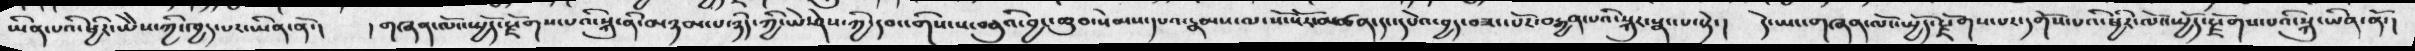ཡིན་པའི་ཕྱིར་ཡེེས་ཀྱི་ཁྱད་པར་ཡིན་ནོ་།   །གཞན་ལོང་སྤྱོད་སྫོགས་པའི་སྐུ་ནི་མཉམ་པ་ཉིད་ཀྱི་ཡེ་ཤེས་ཀྱི་དབང་གིས་ས་་བཅུའི་བྱང་ཆུབ་སེམས་དཔའ་རྣམས་པ་སོ་སོར་མཚན་དང་དཔེའ་བྱད་བཟང་པོ་བརྒྱན་པའི་སྐུར་སྣང་པ་སྟེ་།  དེ་ཡང་གཞན་ལོང་སྤྱོད་སྫོགས་པར་དགོས་པའི་ཕྱིར་ལོང་སྤྱོད་སྫོགས་པའི་སྐུ་ཡིན་ནོ་།
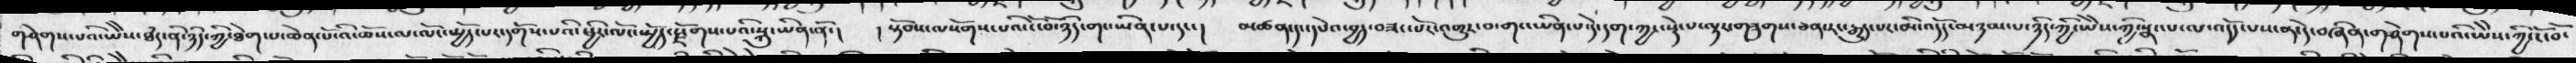གཤེགས་པའི་ཡེེས་ཐཾད་ནི་ཉིད་ཀྱི་ཐེག་པ་ཆེན་པོ་འི་ཆོས་ལ་ལོང་སྤྱོད་པར་དགོས་པའི་ལོང་སྤྱོད་སྫོགས་པའི་སྐུ་ཡིན་ནོ་།  །སྟོབས་ལསོགས་པའི་ངོ་བོ་ཉིད་གང་ཡིན་པ་དང་།  མཚན་དང་དཔེའ་བྱད་བཟང་པོར་འགྱུར་བ་གང་ཡིན་པ་དེ་དག་ཀྱང་སྡེ་པ་ལྟར་གཟུགས་ཅན་རང་རྒྱུད་པར་མི་འདོད་མཉམ་པ་ཉིད་ཀྱི་ཡེེས་ཀྱི་སྣང་པ་ལ་འདོད་པས་ན་དེ་བཞིན་གཤེགས་པའི་ཡེེས་ཀྱི་ངོ་བོ་
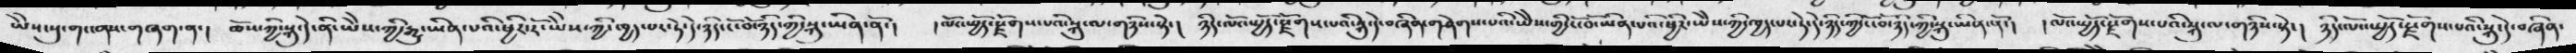ཡེེས་སུ་གང་ནས་གཞག་ན་།   ཆོས་ཀྱི་སྐུ་དེ་ནི་ཡེེས་ཀྱི་རྒྱུ་ཡིན་པའི་ཕྱིར་རོ་ཡེེས་ཀྱི་ཁྱད་པར་ཏེ་དེ་ཉིད་ངོ་བོ་ཉིད་ཀྱི་སྐུ་ཡིན་ནོ་།  །ལོང་སྤྱོད་སྫོགས་པའི་སྐུ་ལ་གཉིས་སྟེ་།  ཉིད་ལོང་སྤྱོད་སྫོགས་པའི་སྐུ་དེ་བཞིན་གཤེགས་པའི་ཡེེས་ཀྱི་ངོ་བོ་ཡིན་པའི་ཕྱིར་ཡེེས་ཀྱི་ཁྱད་པར་དེ་དེ་ཉིད་ཀྱི་ངོ་བོ་ཉིད་ཀྱི་སྐུ་ཡིན་ནོ་།    །ལོང་སྤྱོད་སྫོགས་པའི་སྐུ་ལ་གཉིས་སྟེ་།  ཉིད་ལོང་སྤྱོད་སྫོགས་པའི་སྐུ་དེ་་བཞིན་
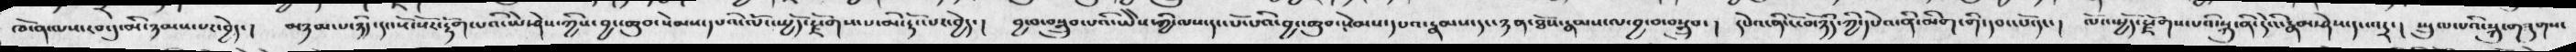ཁོ་ན་ལས་རབ་དུ་མི་ཉམས་པར་བྱེད་།  མཉམ་པ་ཉིད་དང་སོ་སོར་རྟོག་པའི་ཡེ་ཤེས་ཀྱིས་བྱང་ཆུབ་སེམས་དཔའི་ལོང་སྤྱོད་རྫོགས་པ་མི་རྟོང་པར་བྱེད་།   བྱ་བ་་བསྒྲུབ་པའི་ཡེེས་ཀྱི་ལས་དང་པོ་པའི་བྱང་ཆུབ་སེསམས་དཔའ་རྣམས་དང་ཉན་ཐོས་རྣམས་ལ་བྱ་བ་བསྒྲུབ་།  དཔེའ་ནི་ངོ་མཉིད་ཀྱི་དཔེའ་ནི་མིག་གི་དབང་པོ་དང་།   ལོང་སྤྱོད་རྫོགས་པའི་སྐུ་ནི་དེའི་རྣམ་ཤེས་དང་འདྲ་།     སྤྲུལ་པའི་སྐུ་གཟུགས་
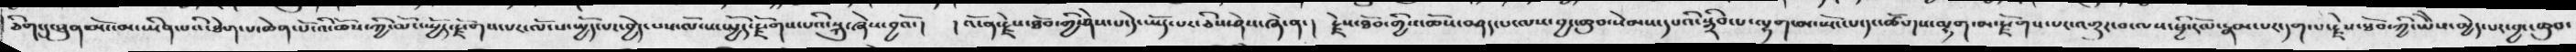ཅིག་དུ་ཐུན་མོང་མ་ཡིན་པའི་ཐེག་པ་ཆེན་པོ་འི་ཆོས་ཀྱི་ལོང་སྤྱོད་སྫོགས་པར་ལོང་སྤྱོད་པར་བྱེད་པས་ལོངས་སྤྱོད་སྫོགས་པའི་སྐུ་ཞེས་བྱའོ་།  །འོ་ན་རྗེས་ཐོབ་ཀྱི་ཤེས་པ་དེ་ཡོད་པར་ཅིས་ཤེས་ཞེ་ན་།  རྗེས་ཐོབ་གྱིས་ཆོས་བཤད་པ་ལས་བྱང་ཆུབ་སེམས་དཔའི་སྒྲིབ་པ་ལྷག་མ་སྤོང་པ་དང་ཚོགས་ལྷག་མ་སྫོགས་་པར་འགྱུར་བ་ལས་ཕྱི་རོལ་རྣམ་པར་དག་པ་རྗེས་ཐོབ་ཀྱི་ཡེེས་མྱེད་པར་བྱང་ཆུབ་
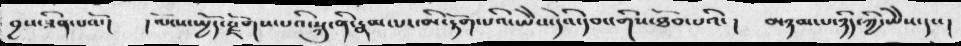བྱས་ཟིན་པའོ་།    །ལོངས་སྤྱོད་སྫོགས་པའི་སྐུ་ནི་རྣམ་པར་མི་རྟོག་པའི་ཡེེས་དེའི་དབང་གིས་ཐོབ་པའི་།    མཉམ་པ་ཉིད་ཀྱི་ཡེེས་དང་།
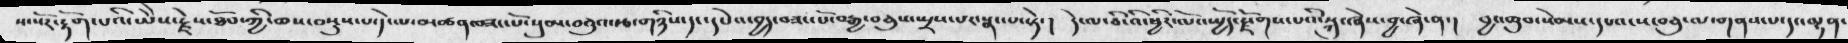སོ་སོར་རྟོག་པའི་ཡེེས་རྗེས་ཐོབ་ཀྱི་ཆས་བསྡུས་པ་དེ་ལ་མཚན་བཟང་པོ་སུམ་བཅུའ་རྩ་གཉིས་དང་དཔེའ་བྱད་བཟང་པོ་བརྒྱ་བཅུས་སྤྲས་པར་སྣང་པ་སྟེ་།  དེ་ལ་ཅི་འི་ཕྱིར་ལོང་སྤྱོད་སྫོགས་པའི་སྐུ་ཞེས་བྱ་ཞེ་ན་།     བྱང་ཆུབ་སེམས་དཔའ་ས་བཅུ་ལ་གནས་པ་དང་ལྡན་
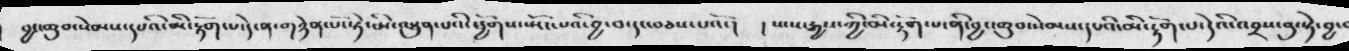བྱང་ཆུབ་སེམས་དཔའི་མི་རྟོག་པ་དེ་ན་གཉེན་པོ་སྟེ་མི་མཐུན་པའི་ཕྱོགས་སྤོང་པའི་བྱ་བ་དང་བཅས་པའོ་།  ། སངས་རྒྱས་ཀྱི་མི་རྟོག་པ་ནི་བྱང་ཆུབ་སེམས་དཔའི་མི་རྟོག་པ་དེའི་འབྲས་བུ་སྟེ་བྱ་བ
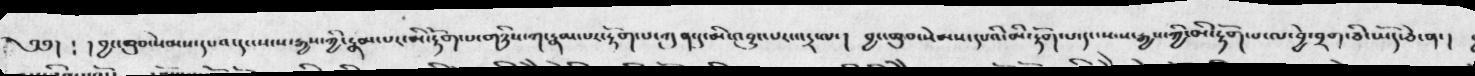༄༅།  ༴ །བྱང་ཆུབ་སེམས་དཔའ་དང་སངས་རྒྱས་ཀྱི་རྣམ་པར་མི་རྟོག་པ་གཉིས་ཀ་རྣམ་པར་རྟོག་པ་ཀུན་དུ་མི་འབྱུང་པར་འདྲ་ལ་།  བྱང་ཆུབ་སེམས་དཔའི་མི་རྟོག་པ་དང་སངས་རྒྱས་ཀྱི་མི་རྟོག་པ་ལ་བྱེ་བྲག་ཅི་ཡོད་ཅེ་ན་།
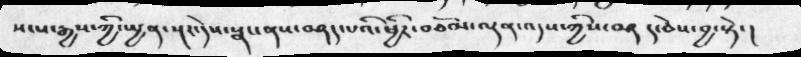སངས་རྒྱས་ཀྱི་ཡྱན་སྔར་དེས་སྣང་ནས་བཤད་པའི་ཕྱིར་བཅོམ་ལྡན་འདས་ཀྱིས་བཤད་ཅེས་བྱ་སྟེ་།
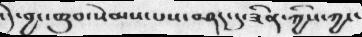་དེ་བྱང་ཆུབ་སེམས་པས་བཤད་དུ་ཟིན་ཀྱིས་ཀྱང་
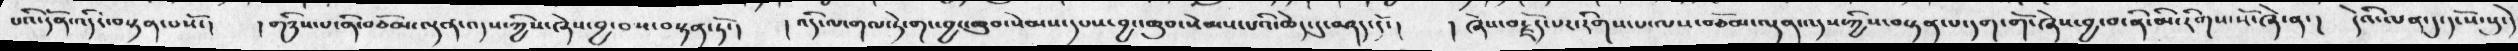པའི་དོན་འདིར་བསྟན་པསོ་།   །གཉིས་པ་ནི་བཅོམ་ལྡན་འདས་ཀྱིས་ཞེས་བྱ་བས་བསྟན་ཏོ་།   །འདི་ལ་གལ་ཏེ་གང་བྱང་ཆུབ་སེམས་དཔས་བྱང་ཆུབ་སེམས་པའི་ཆེད་དུ་བཤད་དོ་།   །ཞེས་བརྗོད་པར་རིགས་པ་ལས་བཅོམ་ལྡན་འདས་ཀྱིས་བསྟན་པ་དག་གོ་ཞེས་བྱ་བ་ནི་མི་རིགས་སོ་ཞེ་ན་།  དེའི་ལན་དུ་དངོས་སུ་དེ
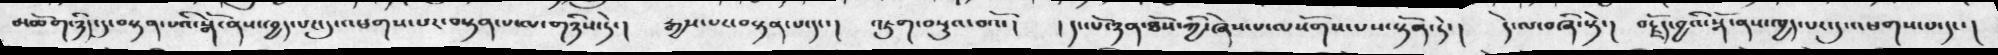མཆོག་ཉིད་དུ་བསྟན་པའི་སྒོ་ནས་ཁྱད་པར་དུ་འཕགས་པར་བསྟན་པ་ལ་གཉིས་ཏེ་།   རྒྱས་པར་བསྟན་པ་དང་།  འཇུག་བསྡུའ་བའོ་།      ། དང་པོ་ཉན་ཐོས་ཀྱི་ཞེས་པ་ལསོགས་པས་སྟོན་ཏེ་།  དེ་ལ་བཞི་ཏེ་།   བརྗོད་བྱའི་སྒོ་ནས་ཁྱད་པར་དུ་འཕགས་པ་དང་།
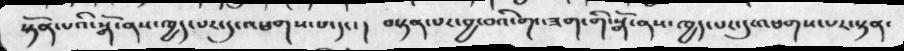སྟོན་པའི་སྒོ་ནས་ཁྱད་པར་དུ་འཕགས་པ་དང་།   བསྟན་པར་བྱ་བའི་གང་ཟག་གི་སྒོ་ནས་ཁྱད་པར་དུ་འཕགས་པར་སྟན་
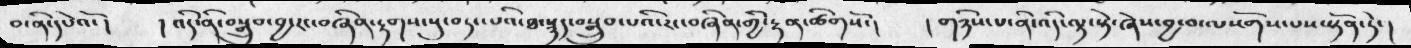བ་ནི་དཔེའོ་།  །འདི་ནི་བསྒྲུབ་བྱ་རང་བཞིན་རྟགས་སུ་བཏང་པའི་ཐ་སྙད་བསྒྲུབ་པའི་རང་བཞིན་གྱི་རྟན་ཚིགསོ་།   །གཉིས་པ་ནི་འདི་ལྟ་སྟེ་ཞེས་བྱ་བ་ལསོགས་པས་སྟོན་ཏེ་།
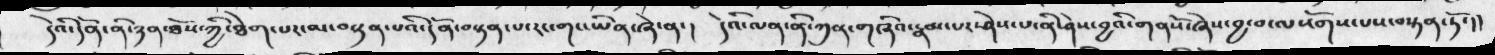དེའི་དོན་ནི་ཉན་ཐོས་ཀྱི་ཐེག་པར་མ་བསྟན་པའི་དོན་བསྟན་པ་དང་གང་ཡིན་ཞེ་ན་།   དེའི་ལན་ནི་ཀུན་གཞིའ་རྣམ་པར་ཤེས་པ་ནི་ཤེས་བྱའི་གནསོ་ཞེས་བྱ་བ་ལསོགས་པས་བསྟན་ཏོ་།།
